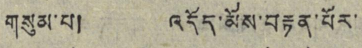གསུམ་པ། འདོད་མོས་བརྟན་པོར་
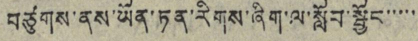བཙུགས་ནས་ཡོན་ཏན་རིགས་ཞིག་ལ་སློབ་སྦྱོང་་་་་
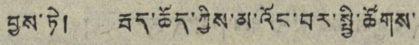བྱས་ཏེ། རྦད་ཆོད་ཀྱིས་མ་འོང་བར་སྤྱི་ཚོགས་
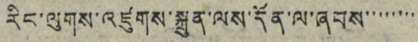རིང་ལུགས་འཛུགས་སྐྲུན་ལས་དོན་ལ་ཞབས་་་་་་་་
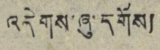འདེགས་ཞུ་དགོས།
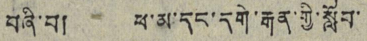བཞི་པ། ཕ་མ་དང་དགེ་རྒན་གྱི་སློབ་
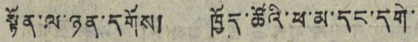སྟོན་ལ་ཉན་དགོས། ཁྱོད་ཚོའི་ཕ་མ་དང་དགེ་
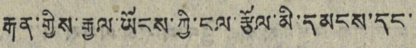རྒན་གས་རྒྱལ་ཡོངས་ཀྱི་ངལ་རྩལ་མ་དམངས་དང་
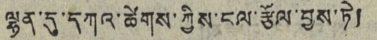ལྷན་དུ་དཀའ་ཚེགས་ཀྱིས་ངལ་རྩོལ་བྱས་ཏེ།
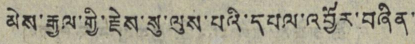མེས་རྒྱལ་གྱི་རྗེས་སུ་ལུས་པའི་དཔལ་འབྱོར་བཞིན་
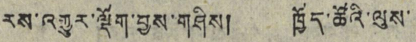རས་འགྱུར་ལྡོག་བྱས་གཤིས། ཁྱོད་ཚོའི་ལུས་
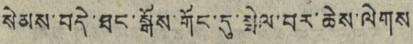སེམས་བདེ་ཐང་སྒོས་གོང་དུ་སྤེལ་བར་ཆེས་ལེགས
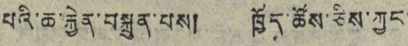པའི་ཆ་རྐྱེན་བསྐྲུན་པས། ཁྱོད་ཚོས་ཅིས་ཀྱང་
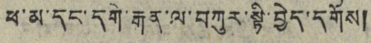ཕ་མ་དང་དགེ་རྒན་ལ་བཀུར་སྟི་བྱེད་དགོས།
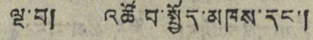ལྔ་བ། འཚོ་བ་སྤྱོད་མཁས་དང་།
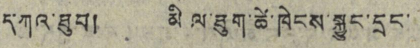དཀའ་ཐུབ། མི ལ་ཐུག་ཚེ་ཁེངས་སྐྱུང་དྲང་
